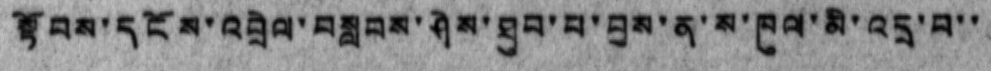སྟོབས་དངོས་འབྲེལ་བསླབས་ཤེས་ཐུབ་པ་བྱས་ན་ས་ཁུལ་མི་འདྲ་བ་་
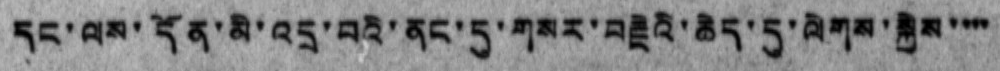དང་ལས་དོན་མི་འདྲ་བའི་ནང་དུ་གསར་བརྗེའི་ཆེད་དུ་ལེགས་སྐྱེས་་་་
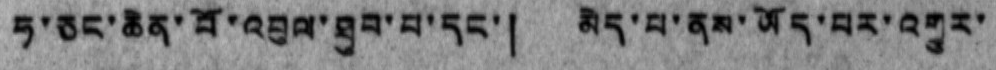ཧ་ཅང་ཆེན་པོ་འབུལ་ཐུབ་པ་དང་། མེད་པ་ནས་ཡོད་པར་འགྱུར་
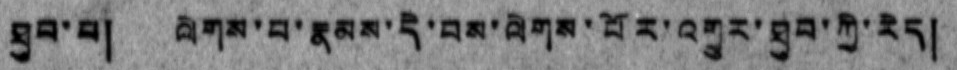ཐུབ་བ། ལེགས་པ་རྣམས་དེ་བས་ལེགས་པོར་འགྱུར་ཐུབ་ཀྱི་རེད།
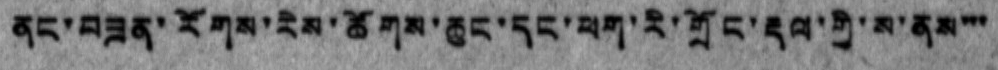ནང་བཟན་རོགས་རེས་ཚོགས་ཆུང་དང་ཕག་རི་གྲོང་རྡལ་གྱི་ས་ནས་་་
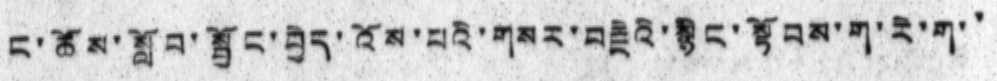ང་ཚོས་སློབ་སྦྱོང་བྱེད་འོས་པའི་གསར་བརྗེའི་སྙིང་སྟོབས་ག་རེ་ག་་
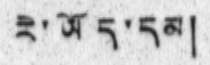རེ་ཡོད་དམ།
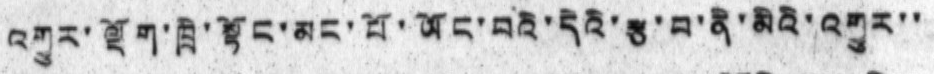འགྱུར་ལྡོག་ཁྲི་སྟོང་མང་པོ་ཡོང་བའི་དེའི་རྩ་བ་ནི་མིའི་འགྱུར་་
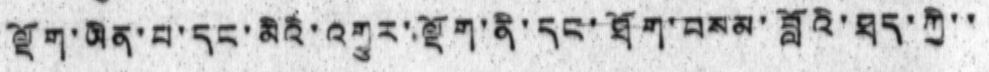ལྡོག་ཡིན་པ་དང་མིའི་འགྱུར་ལྡོག་ནི་དང་ཐོག་བསམ་བློའི་ཐད་ཀྱི་་
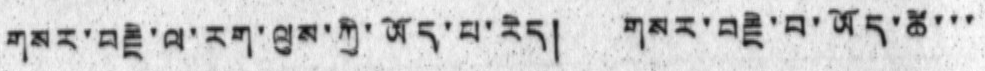གསར་བརྗེ་ལ་རག་ལུས་ཀྱི་ཡོད་པ་རེད། གསར་བརྗེ་བ་ཡོད་ཚེ་་་
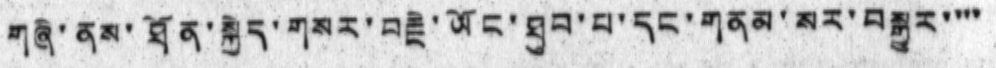གཞི་ནས་ཐོན་སྐྱེད་གསར་བརྗེ་ཡོང་ཐུབ་པ་དང་གནམ་སར་བསྒྱུར་་་་
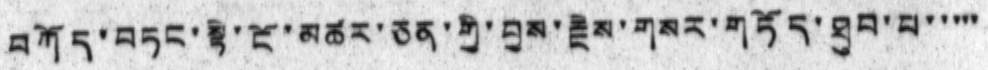བཀོད་བཏང་སྟེ་ངོ་མཚར་ཅན་གྱི་བྱས་རྗེས་གསར་གཏོད་ཐུབ་པ་་་་་
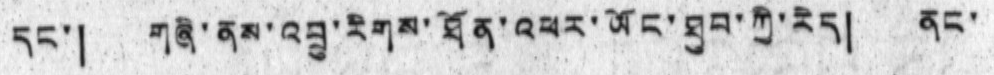དང་། གཞི་ནས་འབྲུ་རིགས་ཐོན་འཕར་ཡོང་ཐུབ་ཀྱི་རེད། ནང་
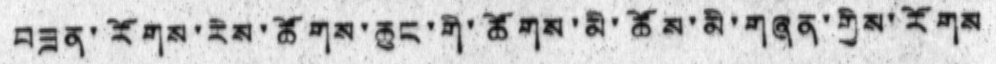བཟན་རོགས་རེས་ཚོགས་ཆུང་གི་ཚོགས་མི་ཚོས་མི་གཞན་གྱིས་རོགས
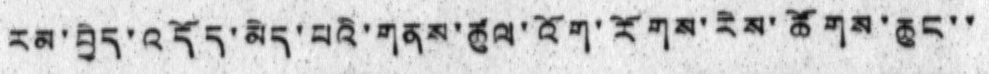རམ་བྱེད་འདོད་མེད་པའི་གནས་ཚུལ་འོག་རོགས་རེས་ཚོགས་ཆུང་་
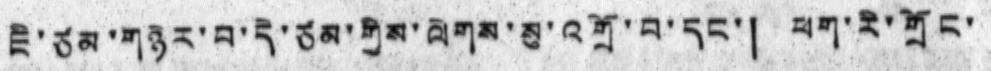ཇི་ཙམ་གཉེར་བ་དེ་ཙམ་གྱིས་ལེགས་སུ་འགྲོ་བ་དང་། ཕག་རི་གྲོང་
